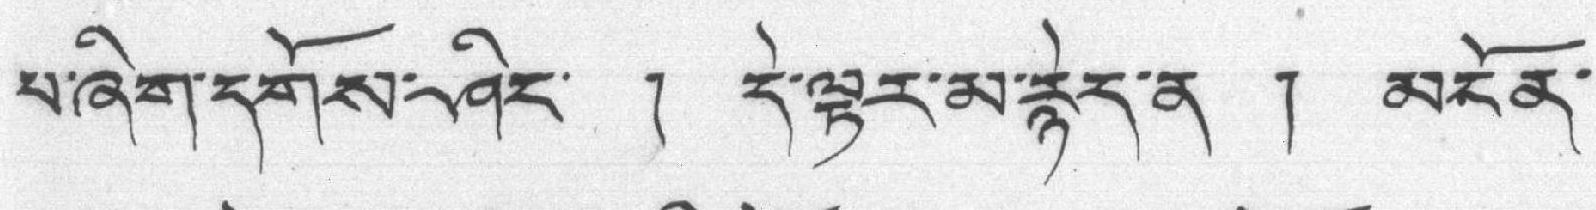པ་ཞིག་དགོས་ཤིང་ ། དེ་ལྟར་མ་རྙེད་ན ། མངོན་
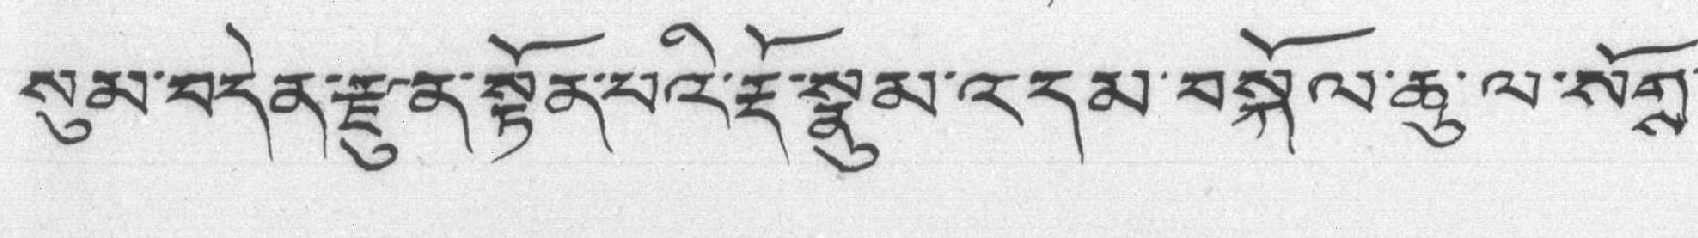སུམ་བདེན་རྫུན་སྟོན་པའི་རྡོ་སྣུམ་འདམ་བསྐོལ་ཆུ་ལ་སོགས་
